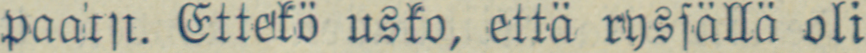paaksi. Ettekö usko, että ryssällä oli
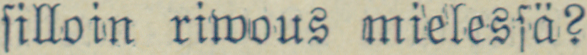silloin riwous mielessä?
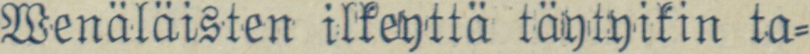Wenäläisten ilkeyttä täytyikin ta-
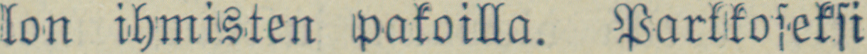lon ihmisten pakoilla. Parkkoseksi
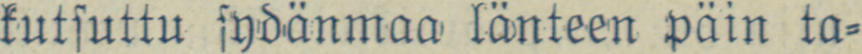kutsuttu sydänmaa länteen päin ta-
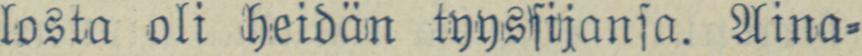losta oli heidän tyyssijansa. Aina-
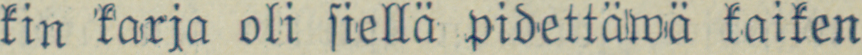kin karja oli siellä pidettäwä kaiken
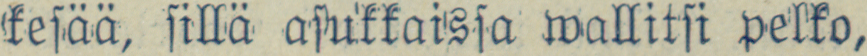kesää, sillä asukkaissa wallitsi pelko,
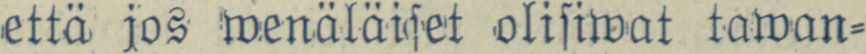että jos wenäläiset olisiwat tawan-
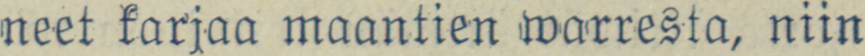neet karjaa maantien warresta, niin
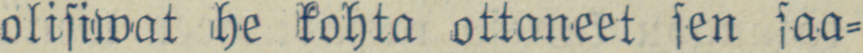olisiwat he kohta ottaneet sen saa-
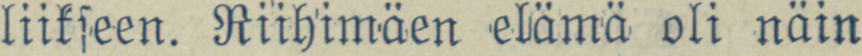liikseen. Riihimäen elämä oli näin
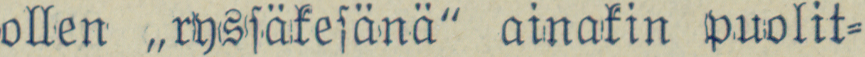ollen „ryssäkesänä" ainakin puolit-
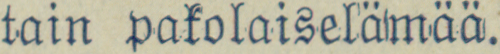tain pakolaiselämää.
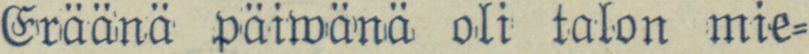Eräänä päiwänä oli talon mie-
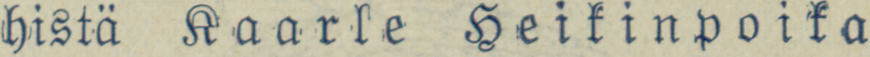histä Kaarle Heikinpoika
